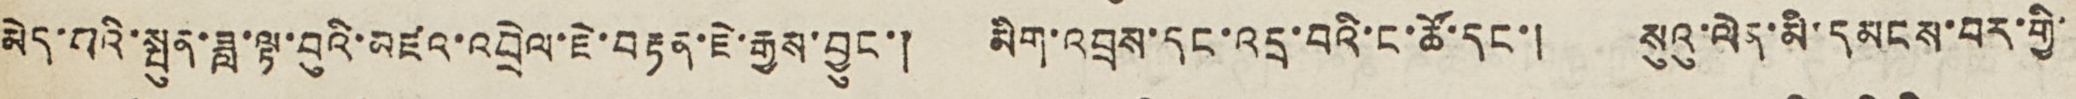མེད་པའི་སྤུན་ཟླ་ལྟ་བུའི་མཛའ་འབྲེལ་ཇེ་བརྟན་ཇེ་རྒྱས་བྱུང་། མིག་འབྲས་དང་འདྲ་བའི་ང་ཚོ་དང་། སུའུ་ལེན་མི་དམངས་བར་གྱི་
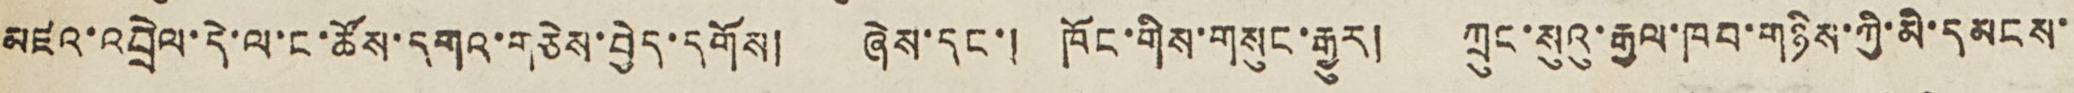མཛའ་འབྲེལ་དེ་ལ་ང་ཚོས་དགའ་གཅེས་བྱེད་དགོས། ཞེས་དང་། ཁོང་གིས་གསུང་རྒྱུར། ཀྲུང་སུའུ་རྒྱལ་ཁབ་གཉིས་ཀྱི་མི་དམངས་
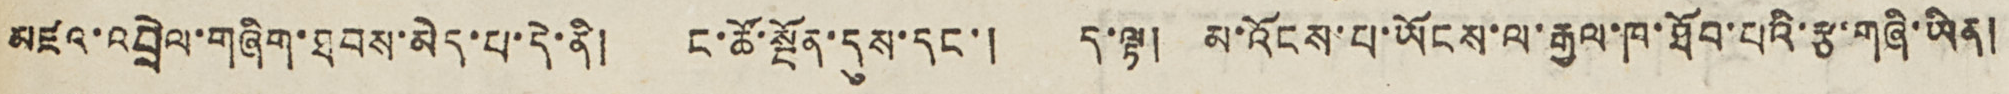མཛའ་འབྲེལ་གཞིག་ཐབས་མེད་པ་དེ་ནི། ང་ཚོ་སྔོན་དུས་དང་། ད་ལྟ། མ་འོངས་པ་ཡོངས་ལ་རྒྱལ་ཁ་ཐོབ་པའི་རྩ་གཞི་ཡིན།
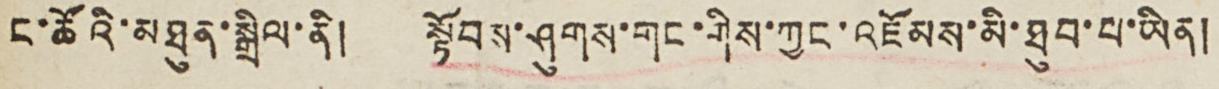ང་ཚོའི་མཐུན་སྒྲིལ་ནི། སྟོབས་ཤུགས་གང་གིས་ཀྱང་འཛོམས་མི་ཐུབ་པ་ཡིན།
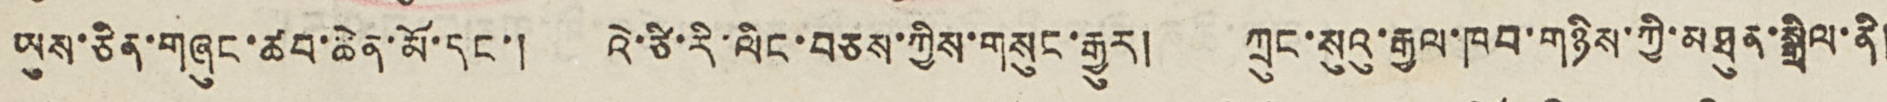ཡུས་ཅིན་གཞུང་ཚབ་ཆེན་མོ་དང་། འེ་ཅི་རི་ལིང་བཅས་ཀྱིས་གསུང་རྒྱུར། ཀྲུང་སུའུ་རྒྱལ་ཁབ་གཉིས་ཀྱི་མཐུན་སྒྲིལ་ནི།
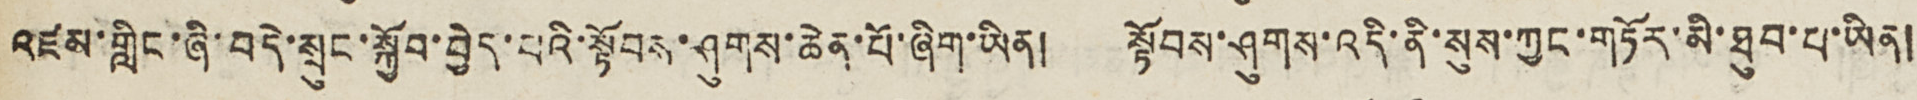འཛམ་གླིང་ཞི་བདེ་སྲུང་སྐྱོབ་བྱེད་པའི་སྟོབས་ཤུགས་ཆེན་པོ་ཞིག་ཡིན། སྟོབས་ཤུགས་འདི་ནི་སུས་ཀྱང་གཏོར་མི་ཐུབ་པ་ཡིན།
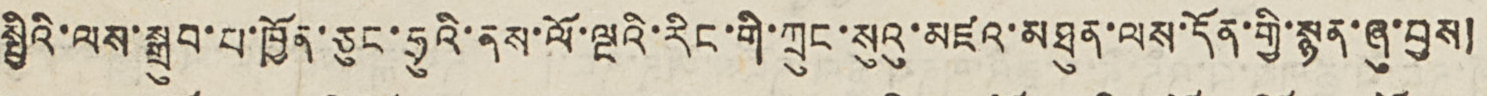སྤྱིའི་ལས་སྒྲུབ་པ་ཁྱོན་ཅུང་ཧྲུའི་ནས་ལོ་ལྔའི་རིང་གི་ཀྲུང་སུའུ་མཛའ་མཐུན་ལས་དོན་གྱི་སྙན་ཞུ་བས།
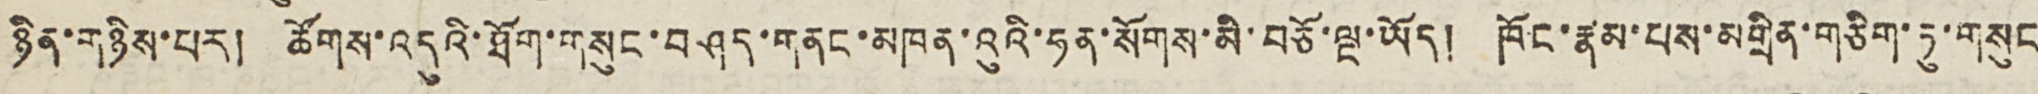ཉིན་གཉིས་པར། ཚོགས་འདུའི་ཐོག་གསུང་བཤད་གནང་མཁན་འུའི་ཧན་སོགས་མི་བཅོ་ལྔ་ཡོད། ཁོང་རྣམ་པས་མགྲིན་གཅིག་ཏུ་གསུང
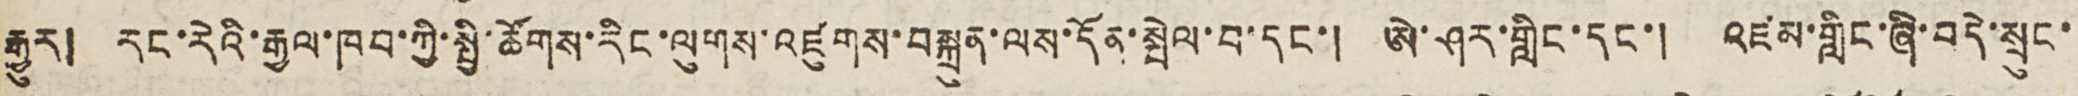རྒྱུར། རང་རེའི་རྒྱལ་ཁབ་ཀྱི་སྤྱི་ཚོགས་རིང་ལུགས་འཛུགས་བསྐྲུན་ལས་དོན་སྤེལ་བ་དང་། ཨེ་ཤར་གླིང་དང་། འཛམ་གླིང་ཞི་བདེ་སྲུང་
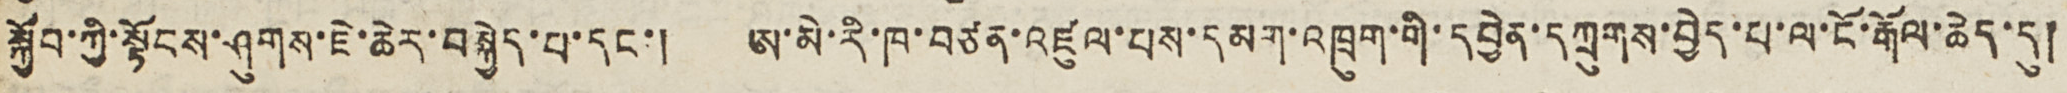སྐྱོབ་ཀྱི་སྟོངས་ཤུགས་ཇེ་ཆེར་བསྐྱེད་པ་དང་། ཨ་མེ་རི་ཁ་བཙན་འཛུལ་པས་དམག་འཁྲུག་གི་དབྱེན་དཀྲུགས་བྱེད་པ་ལ་ངོ་རྒོལ་ཆེད་དུ།
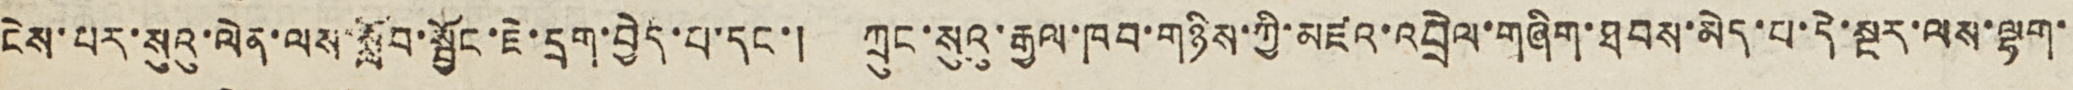ངེས་པར་སུའུ་ལེན་ལས་སློབ་སྦྱོང་ཇེ་དྲག་བྱེད་པ་དང་། ཀྲུང་སུའུ་རྒྱལ་ཁབ་གཉིས་ཀྱི་མཛའ་འབྲེལ་གཞིག་ཐབས་མེད་པ་དེ་སྔར་ལས་ལྷག་
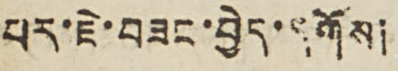པར་ཇེ་བཟང་བྱེད་དགོས།
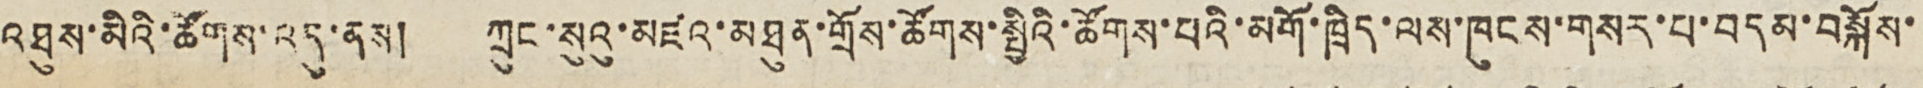འཐུས་མིའི་ཚོགས་འདུ་ནས། ཀྲུང་སུའུ་མཛའ་མཐུན་གྲོས་ཚོགས་སྤྱིའི་ཚོགས་པའི་མགོ་ཁྲིད་ལས་ཁུངས་གསར་པ་བདམ་བསྐོས་
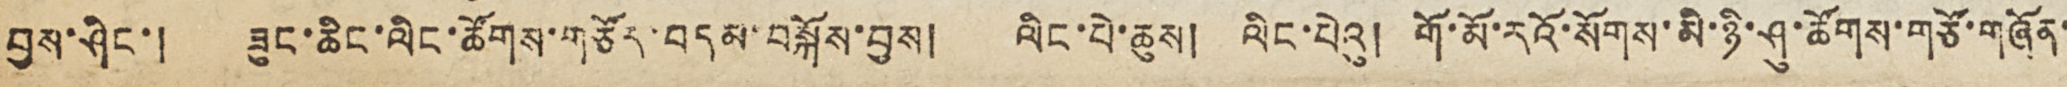བྱས་ཤིང་། ཟུང་ཆིང་ལིང་ཚོགས་གཙོར་བདམ་བསྐོས་བྱས། ལིང་པེ་ཆུས། ལིང་པེའུ། གོ་མོ་རའོ་སོགས་མི་ཉི་ཤུ་ཚོགས་གཙོ་གཞོན་
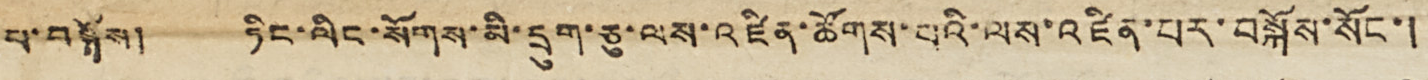པ་བསྐོས། ཏིང་ལིང་སོགས་མི་དྲུག་ཅུ་ལས་འཛིན་ཚོགས་པའི་ལས་འཛིན་པར་བསྐོས་སོང་།
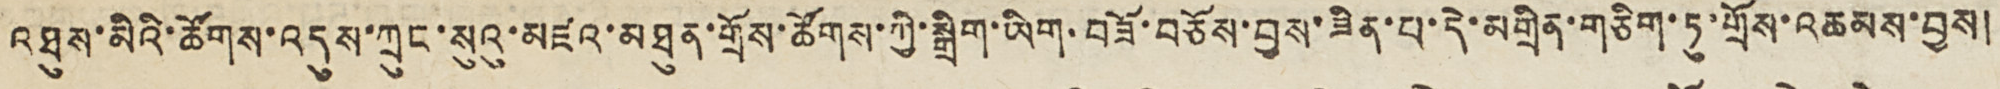འཐུས་མིའི་ཚོགས་འདུས་ཀྲུང་སུའུ་མཛའ་མཐུན་གྲོས་ཚོགས་ཀྱི་སྒྲིག་ཡིག་བཟོ་བཅོས་བྱས་ཟིན་པ་དེ་མགྲིན་གཅིག་ཏུ་གྲོས་འཆམས་བྱས།
